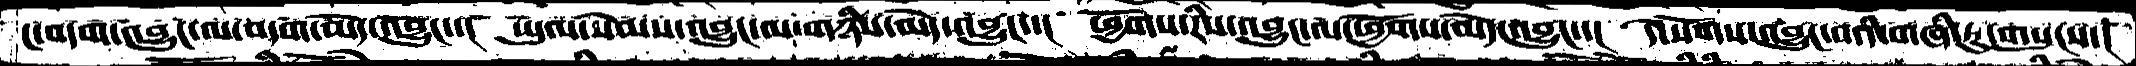ང་བདག་འབྱུང་ལ་བདག་མེད་འབྱུང་་།  ཡུལ་སེམས་འབྱུང་ལ་གཉིས་མེད་འབྱུང་་།  ཕྱོགས་རིས་འབྱུང་ལ་ཕྱོགས་མེད་འབྱུང་་།  དེ་སོགས་འབྱུང་བའི་གཞི་རུ་གསུངས་།
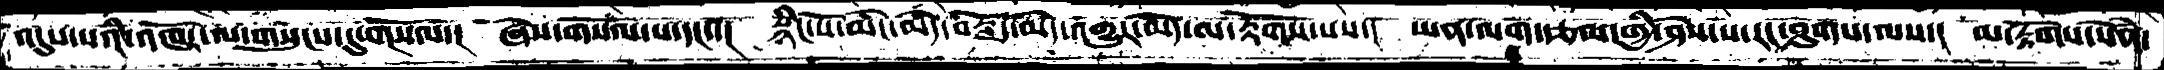འདུས་པའི་འཁོར་ལ་གསུངས་དུ་གསོལ་།  ཞེས་གསོལ་པ་དང་།  སྙིང་པོ་མིང་མེད་བརྗོད་མེད་འགྱུར་མེད་མ་རྟོགས་པས་།  ཡན་ལག་རྩལ་གྱི་ཤེས་པ་རང་ཤུགས་ལས་།  མ་རྟོགས་སེནཾ་
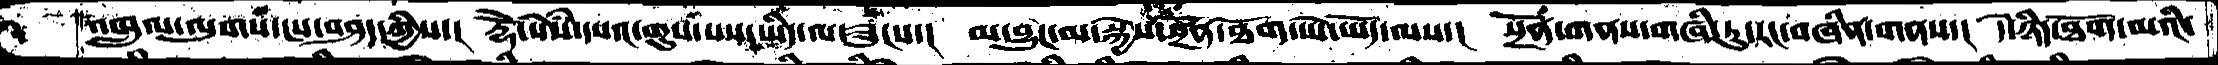འཁྲུལ་ལུགས་ངས་བཤད་ཀྱིས་།  རྡོེ་སེསཾ་དཔའ་གུས་པས་ཡིད་ལ་ཟུངས་།  མ་བྱུང་མ་སྐྱེས་སྔོན་ཐོག་ཡེ་ཡོད་ལས་།  སྔོན་གནས་གཞི་རུ་རང་བཞིན་གནས་།  དེ་ཉིད་ཐོག་མའི་
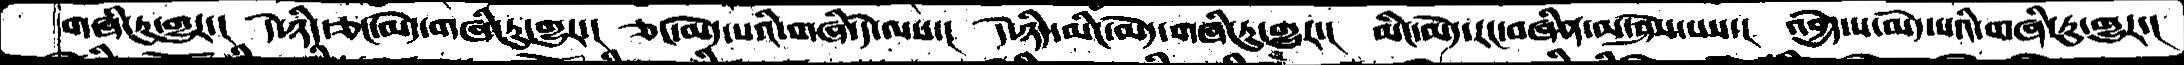གཞི་རུ་གྱུར་།  དེ་ཉིད་ཅང་མེད་གཞི་རུ་གྱུར་།  ཅང་མེད་སའི་གཞི་དེ་ལས་།  དེ་ཉིད་མིང་མེད་གཞི་རུ་གྱུར་།  མིང་མེད་རང་བཞིན་མ་ཤེས་པས་།  འབྱེད་པ་མེད་པའི་གཞི་རུ་གྱུར་།
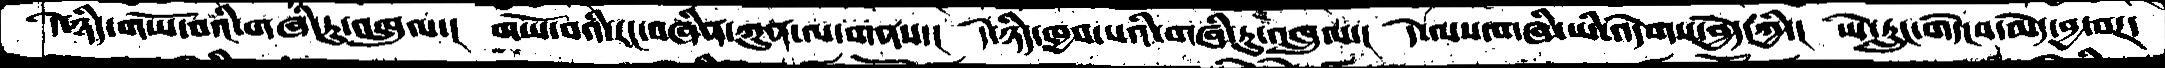དེ་ཉིད་གཡོ་བའི་གཞི་རུ་འཁྲུལ་།  གཡོ་བའི་རང་བཞིན་ཀུན་ལ་གནས་།  དེ་ཉིད་ཁྱབ་པའི་གཞི་རུ་འཁྲུལ་།  དེ་ལས་གཞི་ཡི་འདེགས་བྱེད་ཀྱི་།  ཡེ་རླུང་གདེངས་མེད་བྱ་བར་
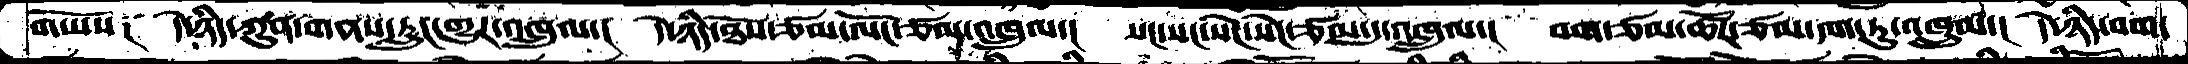གཡོས༑   དེ་ཉིད་ཀུན་གནས་རླུང་གྱུར་འཁྲུལ་།  དེ་ཉིད་ཐོས་ཙམ་ལོང་ཙམ་འཁྲུལ་།  སང་སང་སེང་སེང་ཙམ་དུ་འཁྲུལ་། བག་ཙམ་ཚོཌ་ཙམ་དག་ཏུ་འཁྲུལ་།  དེ་ཉིད་བག་
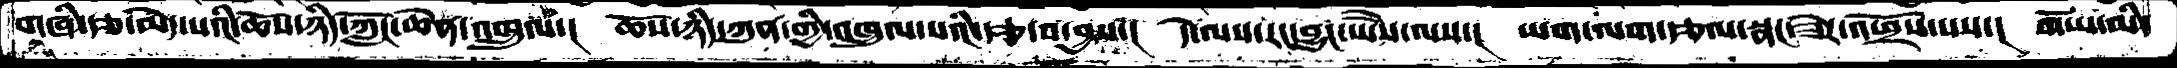གཞི་རྩ་མེད་པའི་ཆོས་ཉིད་ཀློང་ཆེན་འཁྲུལ།  ཆོས་ཉིད་ཀུན་གྱི་འཁྲུལ་པའི་རྩ་བ་བྱས་།  དེ་ལས་རང་བྱུང་ཡེཻས་ལས་།  ཡག་ལག་རྩལ་སྣང་ཟེར་འཕྲོས་པས་།  གཡོ་མི་
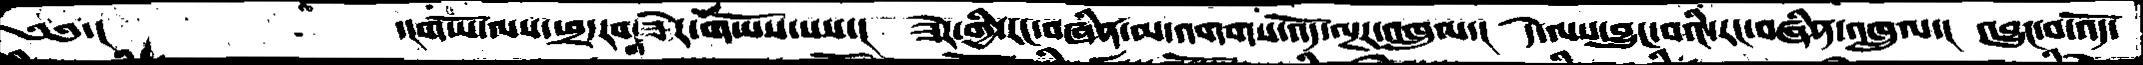༄༅་།   ་།གཡོ་ལས་ཕྲ་རབ་གཟེར་གཡོས་པས་། ཟེར་གྱི་རང་བཞིན་མ་འགགས་འོད་ལྔར་འཁྲུལ་། དེ་ལས་བྱུང་བའི་རང་བཞིན་འཁྲུལ་། འབྱུང་བ་འོད་
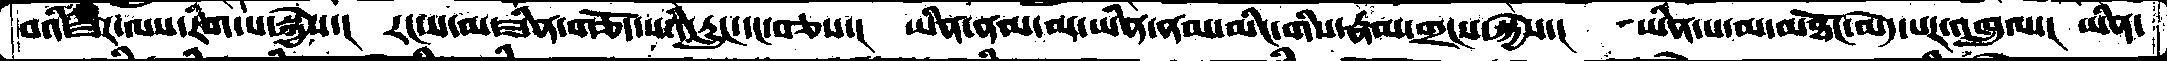བའི་ཟེར་ལས་རིག་པ་སྐྱེས་། རང་ས་མ་ཟིན་གཅོད་པའི་རླུང་དང་བཅས་། ཡིན་ནམ་མ་ཡིན་ནམ་མིང་གིས་རྣམ་གྲངས་སྐྱེས་། ཡིན་པ་མ་མཐོང་མེད་པར་འཁྲུལ་། ཡིན་
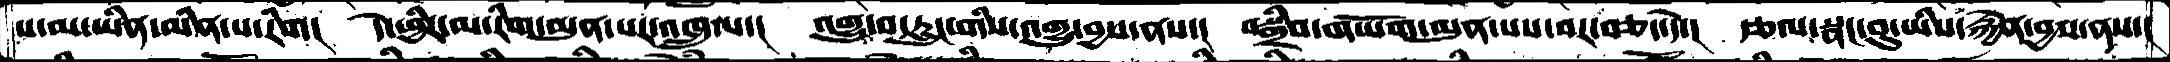པ་མ་ཡིན་མིན་པ་རིག།  དེ་ཕྱིར་མ་རིག་མུན་པར་འཁྲུལ་།  འགྱུ་བ་རླུང་གིས་འགྱུ་བྱས་ནས་།  བསྒྲིབ་གཡོག་མུན་པས་བར་བཅད་དེ་།  རྩལ་སྣང་བུ་ཡིས་རྐྱེན་བྱས་ནས་།
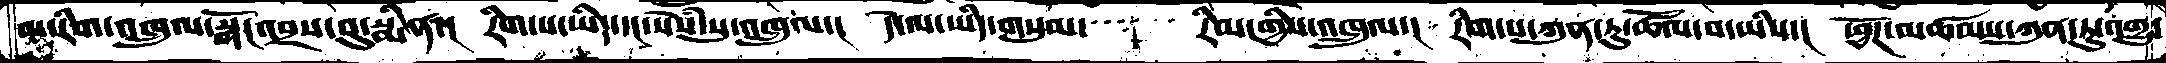མ་རིག་འཁྲུལ་སྒོང་འབྲས་བུ་སྨིན་།  རིག་པ་ཡིད་དང་སེསཾ་སུ་འཁྲུལ་།  དེ་ལ་ཡིད་གསུམ་      རིམ་གྱིས་འཁྲུལ་།  རིག་པ་ཀུན་ཏུ་ཚོལ་བ་ཡིས་།  ཕྱོཌ་མཚམས་ཀུན་ཏུ་འགྱུ་
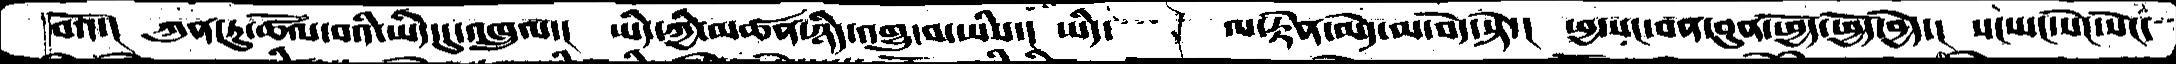བའོ་།  ཀུན་ཏུ་ཚོལ་བའི་ཡིད་དུ་འཁྲུལ་།  ཡིད་ཀྱི་མཚན་ཉིད་འགྱུ་བ་ཡིས་།  ཡིད་     ལ་རྟེན་མེད་མ་བདེ་སྟེ་།  ཕྱ་སང་བན་བུན་ཕྱོད་ཕྱོད་བྱེད་།  སང་སང་སེང་སངེ་
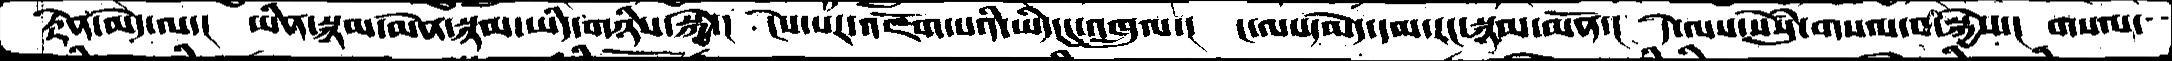རྟེན་མེད་ལ་།  ཡིན་སྙམམེན་སྙམ་ཡིད་གཉིས་སྐྱེ་།  ངེས་པར་འཇོག་པའི་ཡིད་དུ་འཁྲུལ་།  ང་ལས་མེད་དམ་རང་སྙམ་མོན་།  དེ་ལས་སེསུཾ་གསལ་བ་སྐྱེས་།  གསལ་
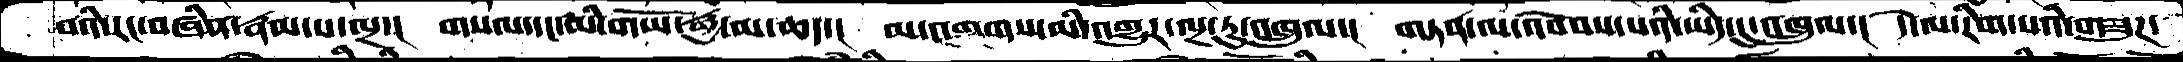བའི་རང་བཞིན་རྣམ་པ་ལྔ་།  གསལ་དང་མི་གཡོ་རྒྱ་མ་ཆད་།  མ་འགགས་མི་འགྱུར་ལྔ་རུ་འཁྲུལ་། གཏན་ལ་འབེབས་པའི་ཡིད་དུ་འཁྲུལ་།  དེ་ལ་རིག་པའི་གཟུཌ་
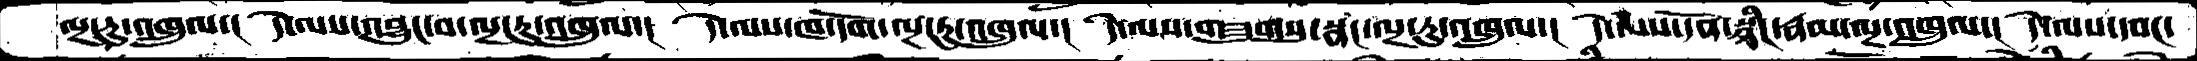ལྔ་རུ་འཁྲུལ་།  དེ་ལས་འབྱུང་བ་ལྔ་རུ་འཁྲུལ་།  དེ་ལས་ཁ་དོག་ལྔ་རུ་འཁྲུལ་།  དེ་ལས་གཟུགས་སྣང་ལྔ་རུ་འཁྲུལ་།  དེ་ལས་དོན་སྙིང་རྣམ་ལྔ་འཁྲུལ་།  དེ་ལས་དབང་
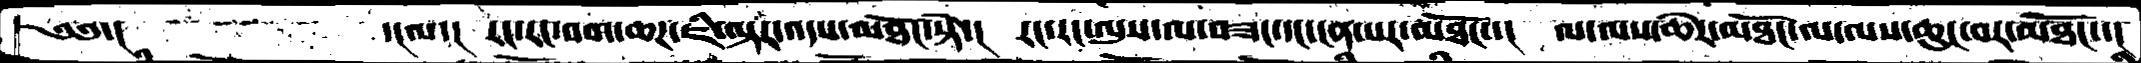༄༅་།           ་།ལ་།  རང་རང་བག་ཆཌ་ཇི་ལྟར་འདས་མཐོང་སྟེ་།  རང་རང་ལུས་ལ་བཟང་དང་ངན་པར་མཐོང་་།  ལ་ལས་ཆེར་མཐོང་ལ་ལས་ཆུང་བར་མཐོང་་།
